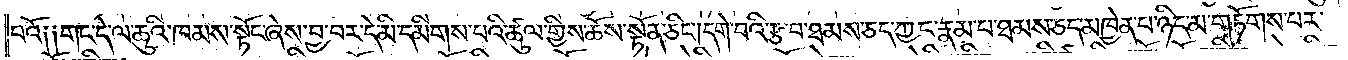བའོ༑ ༑གང་དེ་ལ་ཆུའི་ཁམས་སྟོང་ཞེས་བྱ་བར་དེ་མི་དམིགས་པའི་ཚུལ་གྱིས་ཆོས་སྟོན་ཅིང༌། དགེ་བའི་རྩ་བ་ཐམས་ཅད་ཀྱང་རྣམ་པ་ཐམས་ཅད་མཁྱེན་པ་ཉིད་མ་གཏོགས་པར་
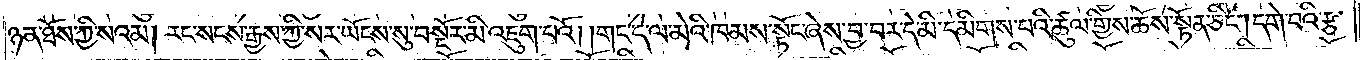ཉན་ཐོས་ཀྱི་སའམ། རང་སངས་རྒྱས་ཀྱི་སར་ཡོངས་སུ་བསྔོར་མི་འཇུག་པའོ། །གང་དེ་ལ་མེའི་ཁམས་སྟོང་ཞེས་བྱ་བར་དེ་མི་དམིགས་པའི་ཚུལ་གྱིས་ཆོས་སྟོན་ཅིང༌། དགེ་བའི་རྩ་
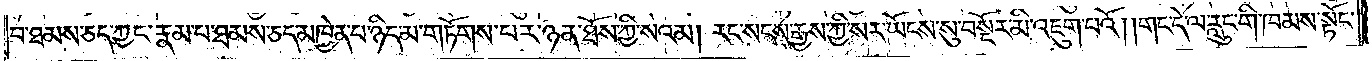བ་ཐམས་ཅད་ཀྱང་རྣམ་པ་ཐམས་ཅད་མཁྱེན་པ་ཉིད་མ་གཏོགས་པར་ཉན་ཐོས་ཀྱི་སའམ། རང་སངས་རྒྱས་ཀྱི་སར་ཡོངས་སུ་བསྔོར་མི་འཇུག་པའོ། །གང་དེ་ལ་རླུང་གི་ཁམས་སྟོང་
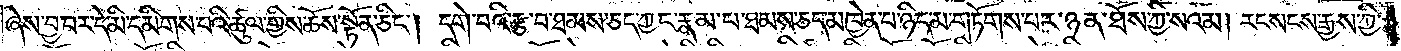ཞེས་བྱ་བར་དེ་མི་དམིགས་པའི་ཚུལ་གྱིས་ཆོས་སྟོན་ཅིང༌། དགེ་བའི་རྩ་བ་ཐམས་ཅད་ཀྱང་རྣམ་པ་ཐམས་ཅད་མཁྱེན་པ་ཉིད་མ་གཏོགས་པར་ཉན་ཐོས་ཀྱི་སའམ། རང་སངས་རྒྱས་ཀྱི་
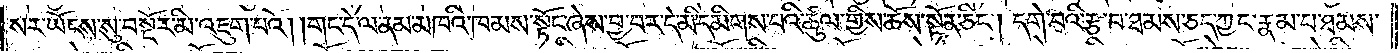སར་ཡོངས་སུ་བསྔོར་མི་འཇུག་པའོ། །གང་དེ་ལ་ནམ་མཁའི་ཁམས་སྟོང་ཞེས་བྱ་བར་དེ་མི་དམིགས་པའི་ཚུལ་གྱིས་ཆོས་སྟོན་ཅིང༌། དགེ་བའི་རྩ་བ་ཐམས་ཅད་ཀྱང་རྣམ་པ་ཐམས་
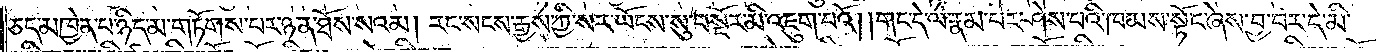ཅད་མཁྱེན་པ་ཉིད་མ་གཏོགས་པར་ཉན་ཐོས་སའམ། རང་སངས་རྒྱས་ཀྱི་སར་ཡོངས་སུ་བསྔོར་མི་འཇུག་པའོ། །གང་དེ་ལ་རྣམ་པར་ཤེས་པའི་ཁམས་སྟོང་ཞེས་བྱ་བར་དེ་མི་
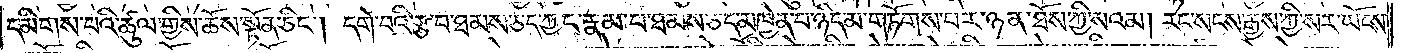དམིགས་པའི་ཚུལ་གྱིས་ཆོས་སྟོན་ཅིང༌། དགེ་བའི་རྩ་བ་ཐམས་ཅད་ཀྱང་རྣམ་པ་ཐམས་ཅད་མཁྱེན་པ་ཉིད་མ་གཏོགས་བར་ཉན་ཐོས་ཀྱི་སའམ། རང་སངས་རྒྱས་ཀྱི་སར་ཡོངས་
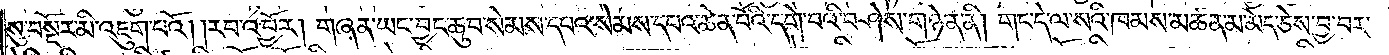སུ་བསྔོར་མི་འཇུག་པའོ། །རབ་འབྱོར། གཞན་ཡང་བྱང་ཆུབ་སེམས་དཔའ་སེམས་དཔའ་ཆེན་པོའི་དགེ་བའི་བཤེས་གཉེན་ནི། གང་དེ་ལ་སའི་ཁམས་མཚན་མ་མེད་ཅེས་བྱ་བར་
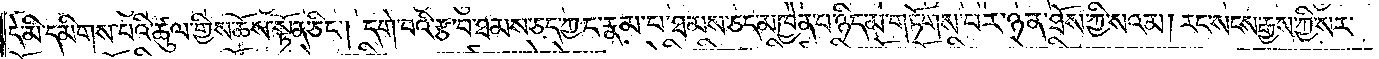དེ་མི་དམིགས་པའི་ཚུལ་གྱིས་ཆོས་སྟོན་ཅིང༌། དགེ་བའི་རྩ་བ་ཐམས་ཅད་ཀྱང་རྣམ་པ་ཐམས་ཅད་མཁྱེན་པ་ཉིད་མ་གཏོགས་པར་ཉན་ཐོས་ཀྱི་སའམ། རང་སངས་རྒྱས་ཀྱི་སར་
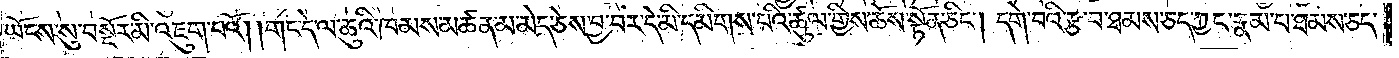ཡོངས་སུ་བསྔོར་མི་འཇུག་པའོ། །གང་དེ་ལ་ཆུའི་ཁམས་མཚན་མ་མེད་ཅེས་བྱ་བར་དེ་མི་དམིགས་པའི་ཚུལ་གྱིས་ཆོས་སྟོན་ཅིང༌། དགེ་བའི་རྩ་བ་ཐམས་ཅད་ཀྱང་རྣམ་པ་ཐམས་ཅད་
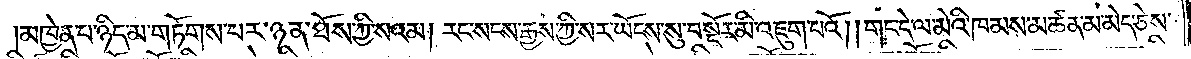མཁྱེན་པ་ཉིད་མ་གཏོགས་པར་ཉན་ཐོས་ཀྱི་སའམ། རང་སངས་རྒྱས་ཀྱི་སར་ཡོངས་སུ་བསྔོར་མི་འཇུག་པའོ། །གང་དེ་ལ་མེའི་ཁམས་མཚན་མ་མེད་ཅེས་
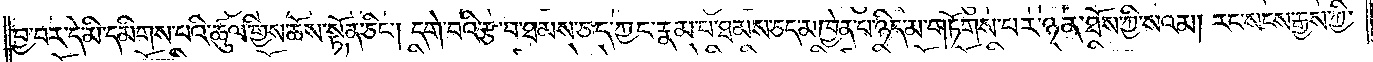བྱ་བར་དེ་མི་དམིགས་པའི་ཚུལ་གྱིས་ཆོས་སྟོན་ཅིང༌། དགེ་བའི་རྩ་བ་ཐམས་ཅད་ཀྱང་རྣམ་པ་ཐམས་ཅད་མཁྱེན་པ་ཉིད་མ་གཏོགས་པར་ཉན་ཐོས་ཀྱི་སའམ། རང་སངས་རྒྱས་ཀྱི་
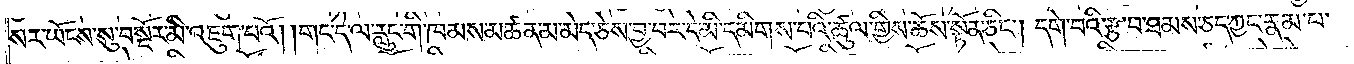སར་ཡོངས་སུ་བསྔོར་མི་འཇུག་པའོ། །གང་དེ་ལ་རླུང་གི་ཁམས་མཚན་མ་མེད་ཅེས་བྱ་བར་དེ་མི་དམིགས་པའི་ཚུལ་གྱིས་ཆོས་སྟོན་ཅིང༌། དགེ་བའི་རྩ་བ་ཐམས་ཅད་ཀྱང་རྣམ་པ་
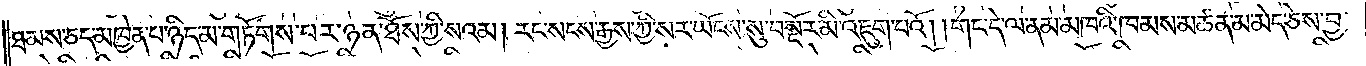ཐམས་ཅད་མཁྱེན་པ་ཉིད་མ་གཏོགས་པར་ཉན་ཐོས་ཀྱི་སའམ། རང་སངས་རྒྱས་ཀྱི་སར་ཡོངས་སུ་བསྔོར་མི་འཇུག་པའོ། །གང་དེ་ལ་ནམ་མཁའི་ཁམས་མཚན་མ་མེད་ཅེས་བྱ་
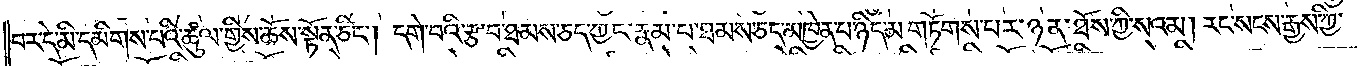བར་དེ་མི་དམིགས་པའི་ཚུལ་གྱིས་ཆོས་སྟོན་ཅིང༌། དགེ་བའི་རྩ་བ་ཐམས་ཅད་ཀྱང་རྣམ་པ་ཐམས་ཅད་མཁྱེན་པ་ཉིད་མ་གཏོགས་པར་ཉན་ཐོས་ཀྱི་སའམ། རང་སངས་རྒྱས་ཀྱི་
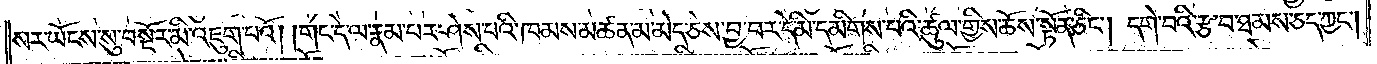སར་ཡོངས་སུ་བསྔོར་མི་འཇུག་པའོ། །གང་དེ་ལ་རྣམ་པར་ཤེས་པའི་ཁམས་མཚན་མ་མེད་ཅེས་བྱ་བར་དེ་མི་དམིགས་པའི་ཚུལ་གྱིས་ཆོས་སྟོན་ཅིང༌། དགེ་བའི་རྩ་བ་ཐམས་ཅད་ཀྱང༌།
